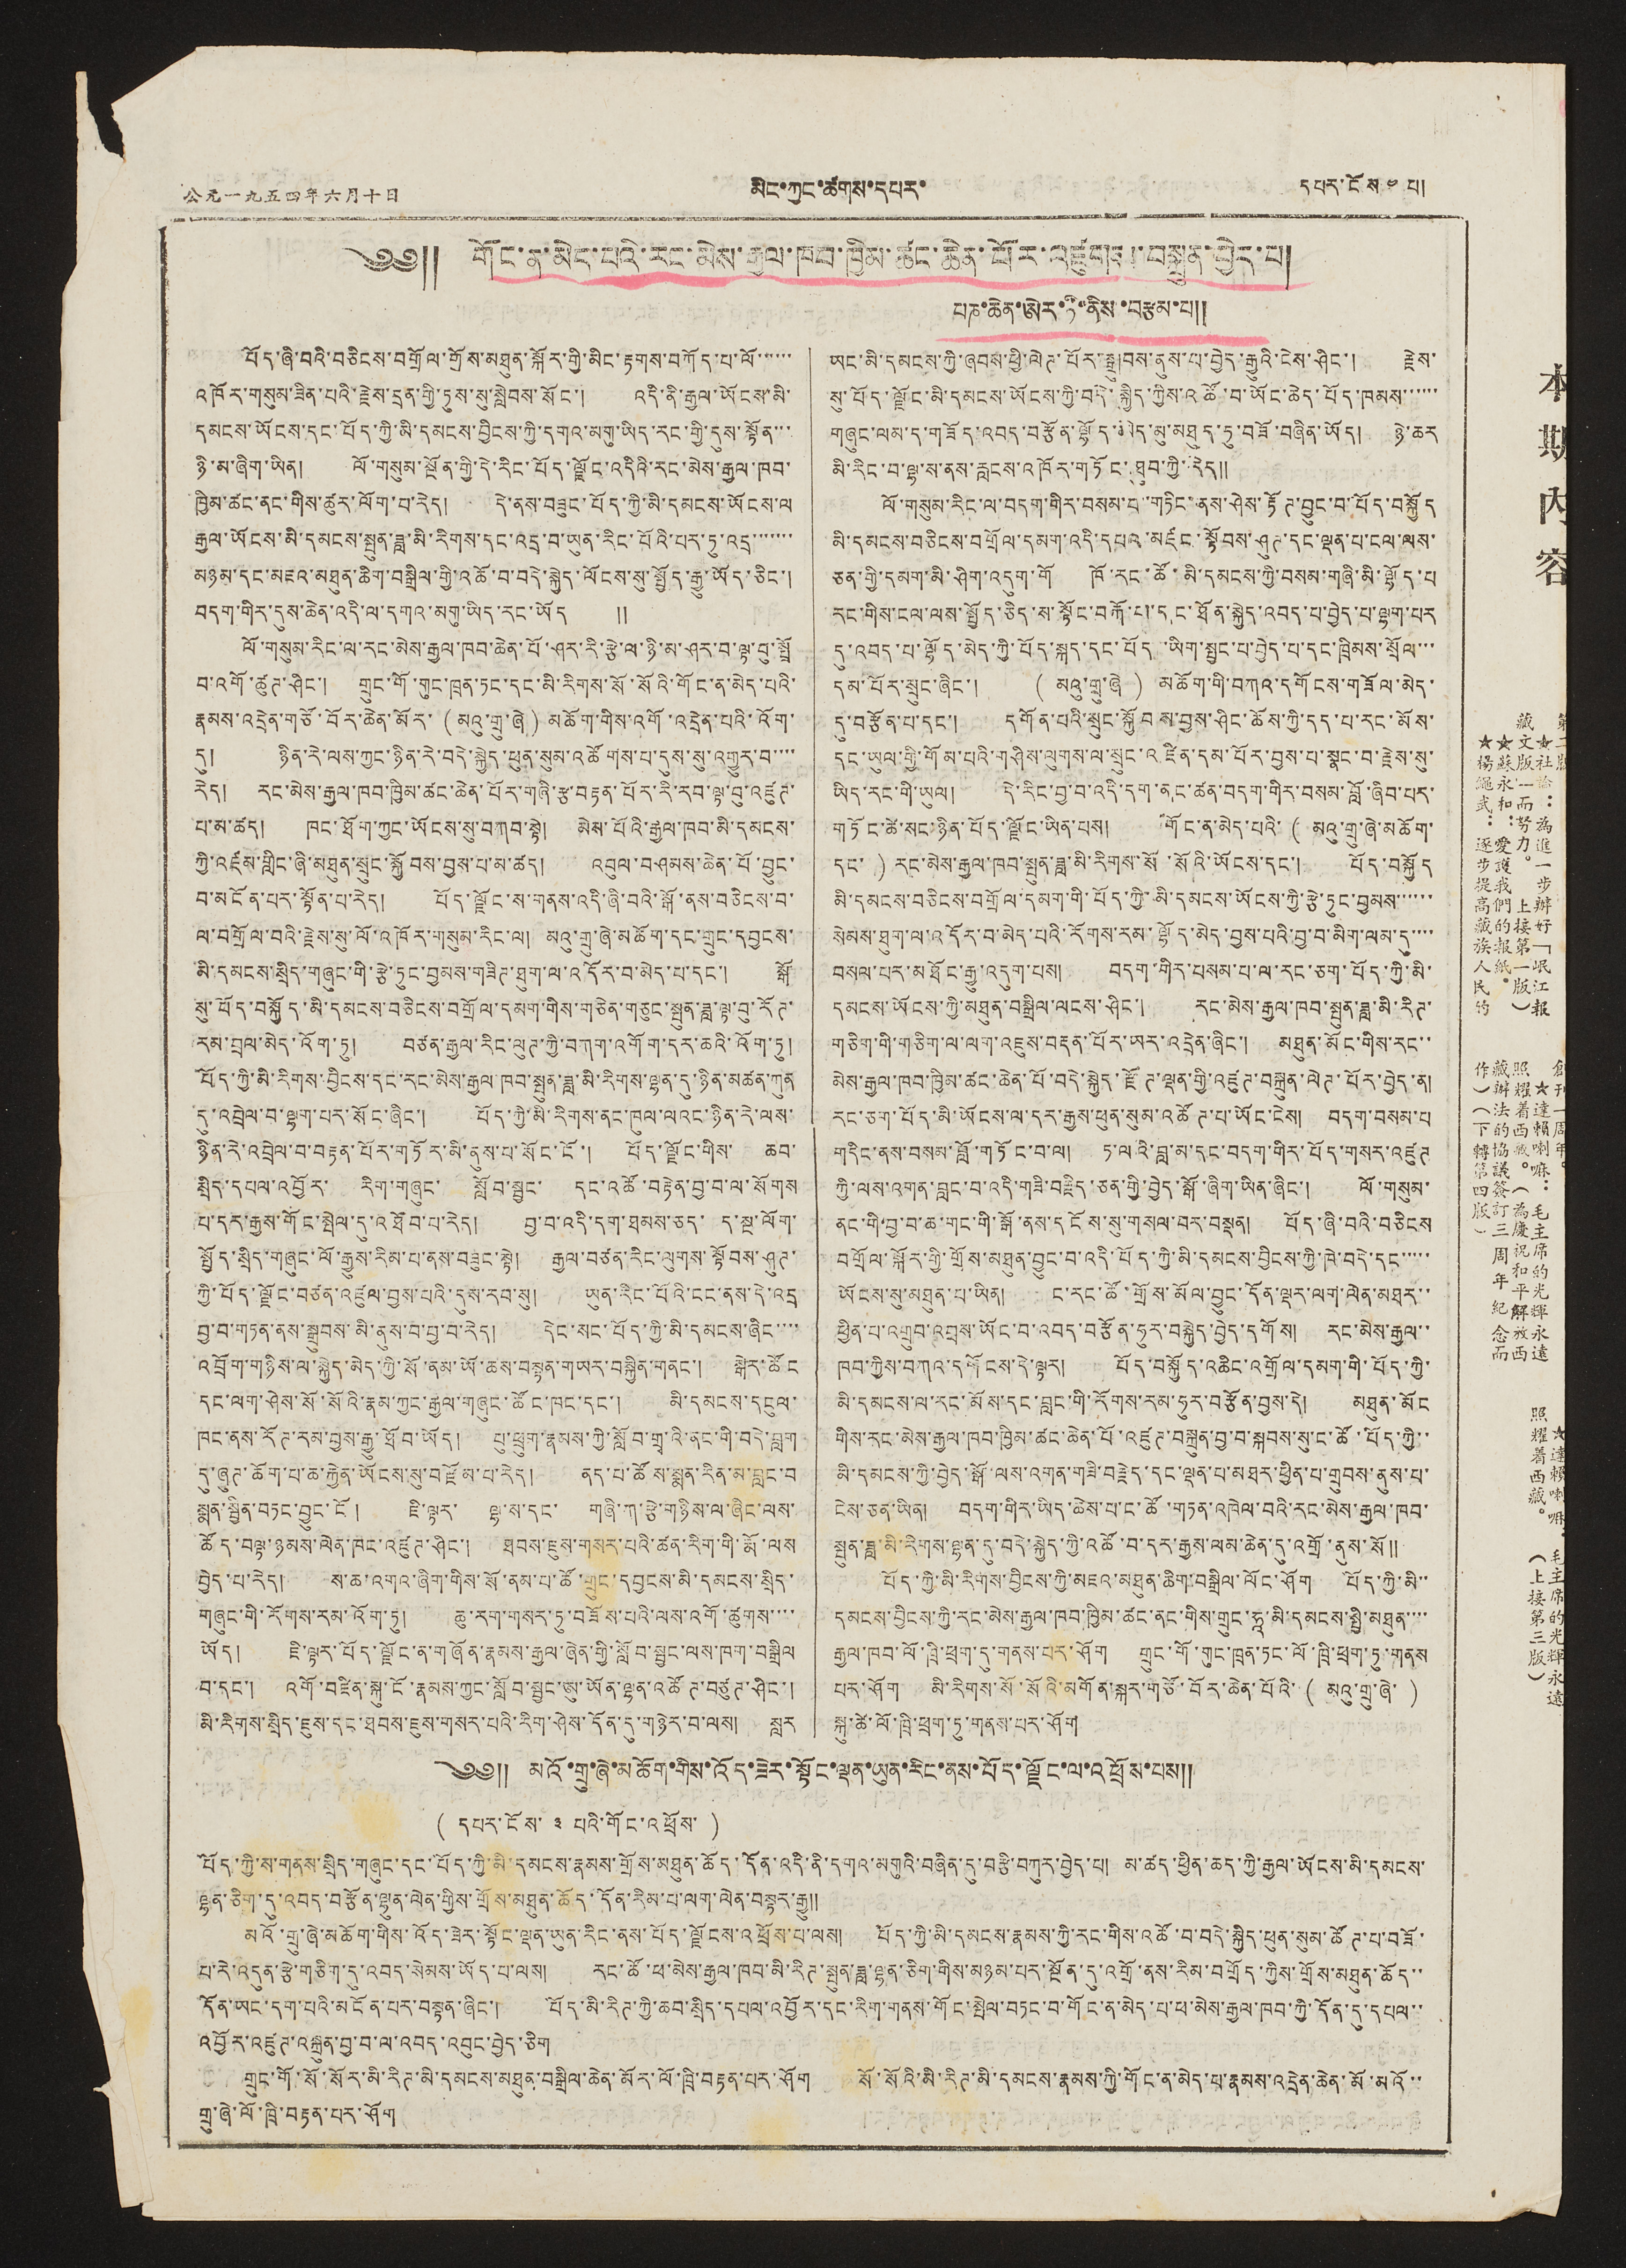公元一九五四年六月十日 མིང་ཀྱང་ཚགས་དཔར་ དཔར་ངོས  ༤ པ།
༄༅༎ གོང་ན་མེད་པའི་རང་མེས་རྒྱལ་ཁབ་ཁྱིམ་ཚང་ཆེན་པོར་འཛུགས་བསྐྲུན་བྱེད་པ།
པཎ་ཆེན་ཨེར་ཏི་ནིས་བརྩམ་པ༎
བོད་ཞི་བའི་བཅིངས་བགྲོལ་གྲོས་མཐུན་སྐོར་གྱི་མིང་རྟགས་བཀོད་པ་ལོ་་་་་་
འཁོར་གསུམ་ཟིན་པའི་རྗེས་དྲན་གྱི་ཏུས་སུ་སླེབས་སོང་། འདི་ནི་རྒྱལ་ཡོངས་མི་
དམངས་ཡོངས་དང་བོད་ཀྱི་མི་དམངས་བྱིངས་ཀྱི་དགའ་མགུ་ཡིད་རང་གྱི་དུས་སྟོན་་་
ཉི་མ་ཞིག་ཡིན། ལོ་གསུམ་སྔོན་གྱི་དེ་རིང་བོད་ལྗོང་འདིའི་རང་མེས་རྒྱལ་ཁབ་
ཁྱིམ་ཚང་ནང་གིས་ཚུར་ལོག་པ་རེད། དེ་ནས་བཟུང་བོད་ཀྱི་མི་དམངས་ཡོངས་ལ
རྒྱལ་ཡོངས་མི་དམངས་སྤུན་ཟླ་མི་རིགས་དང་འདྲ་བ་ཡུན་རིང་པོའི་པར་ཏུ་འདྲ་་་་་་་
མཉམ་དང་མཇའ་མཐུན་ཆིག་བསྒྲིལ་གྱི་འཆོ་བ་བདེ་སྐྱེད་ལོངས་སུ་སྤྱོད་རྒྱུ་ཡོད་ཅིང་།
བདག་གིར་དུས་ཆེན་འདི་ལ་དགའ་མགུ་ཡིད་རང་ཡོད ༎
ལོ་གསུམ་རིང་ལ་རང་མེས་རྒྱལ་ཁབ་ཆེན་པོ་ཤར་རི་རྩེ་ལ་ཉི་མ་ཤར་བ་ལྟ་བུ་སྤྲོ
བ་འགོ་ཚུཊ་ཤིང་། གྲུང་གོ་གུང་ཁྲན་ཏང་དང་མི་རིགས་སོ་སོའི་གོང་ན་མེད་པའི་
རྣམས་འདྲེན་གཙོ་བོར་ཆེན་མོར་ ( མའུ་གྲུ་ཞེ ) མཆོག་གིས་འགོ་འདྲེན་པའི་འོག་
དུ། ཉིན་རེ་ལས་ཀྱང་ཉིན་རེ་བདེ་སྐྱེད་ཕུན་སུམ་འཚོགས་པ་དུས་སུ་འགྱུར་བ་་་་
རེད། རང་མེས་རྒྱལ་ཁབ་ཁྱིམ་ཚང་ཆེན་པོར་གཞི་རྩ་བརྟན་པོར་རི་རབ་ལྟ་བུ་འཛུཊ་
པ་མ་ཚད། ཁང་ཐོག་ཀྱང་ཡོངས་སུ་བཀབ་སྟེ། མེས་པོའི་རྒྱལ་ཁབ་མི་དམངས་
ཀྱི་འཛམ་གླིང་ཞི་མཐུན་སྲུང་སྐྱོབས་བྱས་པ་མ་ཚད། འབུལ་བཤམས་ཆེན་པོ་བྱུང་
བ་མངོན་པར་སྟོན་པ་རེད། བོད་ལྗོང་ས་གནས་འདི་ཞི་བའི་སྒོ་ནས་བཅིངས་བ་
ལ་བགྲོལ་བའི་རྗེས་སུ་ལོ་འཁོར་གསུམ་རིང་ལ། མའུ་གྲུ་ཞེ་མཆོག་དང་གྲུང་དབྱངས་
མི་དམངས་སྲིད་གཞུང་གི་རྩེ་ཏུང་བྱམས་གཟིཊ་ཐུག་ལ་འདོར་བ་མེད་པ་དང་། སྒོ་
སུ་བོད་བསྐྱོད་མི་དམངས་བཅིངས་བགྲོལ་དམག་གིས་གཅེན་གཅུང་སྤུན་ཟླ་ལྟ་བུ་རོཊ་
རམ་བྲལ་མེད་འོག་ཏུ། བཙན་རྒྱལ་རིང་ལུཊ་ཀྱི་བཀག་འགོག་དར་ཆའི་འོག་ཏུ།
བོད་ཀྱི་མི་རིགས་བྱིངས་དང་རང་མེས་རྒྱལ་ཁབ་སྤུན་ཟླ་མི་རིགས་ལྷན་དུ་ཉིན་མཚན་ཀུན
དུ་འབྲེལ་བ་ལྷག་པར་སོང་ཞིང་། བོད་ཀྱི་མི་རིགས་ནང་ཁུལ་ལའང་ཉིན་རེ་ལས་
ཉིན་རེ་འབྲེལ་བ་བརྟན་པོར་གཏོར་མི་ནུས་པ་སོང་ངོ་། བོད་ལྗོང་གིས་ ཆབ་
སྲིད་དཔལ་འབྱོར་  རིག་གཞུང་    སློབ་སྦྱང་    དང་འཚོ་བརྟེན་བྱ་བ་ལ་སོགས
པ་དར་རྒྱས་གོང་སྤེལ་དུ་འཐོབ་པ་རེད། བྱ་བ་འདི་དག་ཐམས་ཅད་ ད་སྔ་ལོག་
སྤྱོད་སྲིད་གཞུང་ལོ་རྒྱུས་རིམ་པ་ནས་བཟུང་སྟེ། རྒྱལ་བཙན་རིང་ལུགས་སྟོབས་ཤུཊ་
ཀྱི་བོད་ལྗོང་བཙན་འཛུལ་བྱས་པའི་དུས་རབ་སུ། ཡུན་རིང་པོའི་ངང་ནས་དེ་འདྲ
བྱ་བ་གཏན་ནས་སྒྲུབས་མི་ནུས་བ་བྱ་བ་རེད། དེང་སང་བོད་ཀྱི་མི་དམངས་ཞིང་་་་
འབྲོག་གཉིས་ལ་སྐྱེད་མེད་ཀྱི་སོ་ནམ་ཡོ་ཆས་བསྟན་གཡར་བསྐྱིན་གནང་། སྒེར་ཚོང
དང་ལག་ཤེས་སོ་སོའི་རྣམ་ཀྱང་རྒྱལ་གཞུང་ཚོང་ཁང་དང་། མི་དམངས་དངུལ་
ཁང་ནས་རོཊ་རམ་བྱས་རྒྱུ་ཐོབ་ཡོད། པུ་ཕྲུག་རྣམས་ཀྱི་སློབ་གྲྭ་འི་ནང་གི་བདེ་བླག
དུ་ཞུཊ་ཆོག་པ་ཆ་རྐྱེན་ཡོངས་སུ་བརྫོམ་པ་རེད། ནད་པ་ཚོས་སྨན་རིན་མ་བླང་བ་
སྨན་སྦྱིན་བཏང་བྱུང་ངོ། ཇི་ལྟར་ ལྷ་ས་དང་ གཞི་ཀ་རྩེ་གཉིས་ལ་ཞིང་ལས་
ཚོད་བལྟ་ཉམས་ལེན་ཁང་འཛུཊ་ཤིང་། ཐབས་ཇུས་གསར་པའི་ཚན་རིག་གི་རྨོ་ལས
བྱེད་པ་རེད། ས་ཆ་འགའ་ཞིག་གིས་སོ་ནམ་པ་ཚོ་གྲུང་དབྱངས་མི་དམངས་སྲིད་
གཞུང་གི་རོགས་རམ་འོག་ཏུ། ཆུ་རག་གསར་ཏུ་བཟོས་པའི་ལས་འགོ་ཚུགས་་་་
ཡོད། ཇི་ལྟར་བོད་ལྗོང་ན་གཞོན་རྣམས་རྒྱལ་ཞེན་གྱི་སློབ་སྦྱང་ལས་ཁག་བསྒྲིལ
བ་དང་། འགོ་བཛིན་སྐུ་ངོ་རྣམས་ཀྱང་སློབ་སྦྱང་ཨུ་ཡོན་ལྷན་འཚོཊ་བཙུཊ་ཤིང་།
མི་རིགས་སྲིད་ཇུས་དང་ཐབས་ཇུས་གསར་པའི་རིག་ཤེས་དོན་དུ་གཉེར་བ་ལས། སླར
ཡང་མི་དམངས་ཀྱི་ཞབས་ཕྱི་ལེཊ་པོར་སྒྲུབས་ནུས་པ་བྱེད་རྒྱུའི་ངེས་ཤིང་། རྗེས་
སུ་བོད་ལྗོང་མི་དམངས་ཡོངས་ཀྱི་བདེ་སྐྱིད་ཀྱིས་འཚོ་བ་ཡོང་ཆེད་བོད་ཁམས་་་་་་
གཞུང་ལམ་ད་གཟོད་འབད་བརྩོན་ལྷོད་མེད་མུ་མཐུད་ཏུ་བཟོ་བཞིན་ཡོད། ཉེ་ཆར
མི་རིང་བ་ལྷ་ས་ནས་རླངས་འཁོར་གཏོང་ཐུབ་ཀྱི་རེད༎
ལོ་གསུམ་རིང་ལ་བདག་གིར་བསམ་པ་གཏིང་ནས་ཤེས་རྟོཊ་བྱུང་བ་བོད་བསྐྱོད
མི་དམངས་བཅིངས་བགྲོལ་དམག་འདི་དཔའ་མཛང་སྟོབས་ཤུཊ་དང་ལྡན་པ་ངལ་ལས་
ཅན་གྱི་དམག་མི་ཤིག་འདུག་གོ ཁོ་རང་ཚོ་མི་དམངས་ཀྱི་བསམ་གཞི་མི་ལྷོད་པ
རང་གིས་ངལ་ལས་སྤྱོད་ཅིད་ས་སྟོང་བརྐོ་པ་དང་ཐོན་སྐྱེད་འབད་པ་བྱེད་པ་ལྷག་པར
དུ་འབད་པ་ལྷོད་མེད་ཀྱི་བོད་སྐད་དང་བོད ་ཡིག་སྦྱང་པ་བྱེད་པ་དང་ཁྲིམས་སྲོལ་་་
དམ་པོར་སྲུང་ཞིང་། ( མའུ་གྲུ་ཞེ ) མཆོག་གི་བཀའ་དགོངས་གཟོལ་མེད་
དུ་བརྩོན་པ་དང་། དགོན་པའི་སྲུང་སྐྱོབས་བྱས་ཤིང་ཆོས་ཀྱི་དད་པ་རང་མོས་
དང་ཡུལ་གྱི་གོམ་པའི་གཤིས་ལུགས་ལ་སྲུང་འཛིན་དམ་པོར་བྱས་པ་སྣང་བ་རྗེས་སུ་
ཡིད་རང་གི་ཡུལ། དེ་རིང་བྱ་བ་འདི་དག་ནང་ཚན་བདག་གིར་བསམ་བློ་ཞིབ་པར་
གཏོང་ཚེ་སང་ཉིན་བོད་ལྗོང་ཡིན་པས། གོང་ན་མེད་པའི་ ( མའུ་གྲུ་ཞེ་མཆོག་
དང་ ) རང་མེས་རྒྱལ་ཁབ་སྤུན་ཟླ་མི་རིགས་སོ ་སོའི་ཡོངས་དང་། བོད་བསྐྱོད
མི་དམངས་བཅིངས་བགྲོལ་དམག་གི་བོད་ཀྱི་མི་དམངས་ཡོངས་ཀྱི་རྩེ་ཏུང་བྱམས་་་་་་
སེམས་ཐུག་ལ་འདོར་བ་མེད་པའི་རོགས་རམ་ལྷོད་མེད་བྱས་པའི་བྱ་བ་མིག་ལམ་དུ་་་་
བསལ་པར་མཐོང་རྒྱུ་འདུག་པས། བདག་གིར་བསམ་པ་ལ་རང་ཅག་བོད་ཀྱི་མི་
དམངས་ཡོངས་ཀྱི་མཐུན་བསྒྲིལ་ལངས་ཤིང་། རང་མེས་རྒྱལ་ཁབ་སྤུན་ཟླ་མི་རིཊ་
གཅིག་གི་གཅིག་ལ་ལག་འཇུས་བརྡན་པོར་ཡར་འདྲེན་ཞིང་། མཐུན་མོང་གིས་རང་་
མེས་རྒྱལ་ཁབ་ཁྱིམ་ཚང་ཆེན་པོ་བདེ་སྐྱེད་རྫོཊ་ལྡན་གྱི་འཛུཊ་བསྐྲུན་ལེཊ་པོར་བྱེད་ན།
རང་ཅག་བོད་མི་ཡོངས་ལ་དར་རྒྱས་ཕུན་སུམ་འཚོཊ་པ་ཡོང་ངེས། བདག་བསམ་པ
གདིང་ནས་བསམ་བློ་གཏོང་བ་ལ། ཏ་ལའི་བླ་མ་དང་བདག་གིར་བོད་གསར་འཛུཊ
ཀྱི་ལས་འགན་བླང་བ་འདི་གཟི་བརྗིད་ཅན་གྱི་བྱེད་སྒོ་ཞིག་ཡིན་ཞིང་། ལོ་གསུམ་
ནང་གི་བྱ་བ་ཆ་གང་གི་སྒོ་ནས་དངོས་སུ་གསལ་བར་བསྡན། བོད་ཞི་བའི་བཅིངས
བགྲོལ་སྐོར་གྱི་གྲོས་མཐུན་བྱུང་བ་འདི་བོད་ཀྱི་མི་དམངས་བྱིངས་ཀྱི་ཁེ་བདེ་དང་་་་་་
ཡོངས་སུ་མཐུན་པ་ཡིན། ང་རང་ཚོ་གྲོས་མོལ་བྱང་དོན་ལྡར་ལག་ལེན་མཐར་་
ཕྱིན་པ་འགྲུབ་འབྲས་ཡོང་བ་འབད་བརྩོན་ཧུར་བསྐྱེད་བྱེད་དགོས། རང་མེས་རྒྱལ་་
ཁབ་ཀྱིས་བཀའ་དགོངས་དེ་ལྟར། བོད་བསྐྱོད་འཆིང་འགྲོལ་དམག་གི་བོད་ཀྱི་
མི་དམངས་ལ་རང་མོས་དང་བླང་གི་རོགས་རམ་ཧུར་བརྩོན་བྱས་དེ། མཐུན་མོང
གིས་རང་མེས་རྒྱལ་ཁབ་ཁྱིམ་ཚང་ཆེན་པོ་འཛུཊ་བསྐྲུན་བྱ་བ་སྐབས་སུ་ང་ཚོ་བོད་ཀྱི་་
མི་དམངས་ཀྱི་བྱེད་སྒོ་ལས་འགན་གཟི་བརྗེད་དང་ལྡན་པ་མཐར་ཕྱིན་པ་གྲུབས་ནུས་པ་
ངེས་ཅན་ཡིན། བདག་གིར་ཡིད་ཆེས་པ་ང་ཚོ ་གཏན་འཁེལ་བའི་རང་མེས་རྒྱལ་ཁབ་
སྤུན་ཟླ་མི་རིགས་ལྷན་དུ་བདེ་སྐྱེད་ཀྱི་འཚོ་བ་དར་རྒྱས་ལམ་ཆེན་དུ་འགྲོ་ནུས་སོ༎
བོད་ཀྱི་མི་རིགས་བྱིངས་ཀྱི་མཇའ་མཐུན་ཆིག་བསྒྲིལ་ལོང་ཤོག བོད་ཀྱི་མི་་
དམངས་བྱིངས་ཀྱི་རང་མེས་རྒྱལ་ཁབ་ཁྱིམ་ཚང་ནང་གིས་གྲུང་ཧཱ་མི་དམངས་སྤྱི་མཐུན་་་་
རྒྱལ་ཁབ་ལོ་ཁྲི་ཕྲག་དུ་གནས་པར་ཤོག གྲུང་གོ་གུང་ཁྲན་ཏང་ལོ་ཁྲི་ཕྲག་ཏུ་གནས
པར་ཤོག མི་རིགས་སོ་སོའི་མགོན་སྐར་གཙོ་བོར་ཆེན་པོའི་ ( མའུ་གྲུ་ཞེ་ )
སྐུ་ཚེ་ལོ་ཁྲི་ཕྲག་ཏུ་གནས་པར་ཤོག
( དཔར་ངོས་ ༣ པའི་གོང་འཕྲོས་)
༄༅༎ མའོ་གྲུ་ཞེ་མཆོག་གིས་འོད་ཟེར་སྟོང་ལྡན་ཡུན་རིང་ནས་བོད་ལྗོང་ལ་འཕྲོས་པས༎
བོད་ཀྱི་ས་གནས་སྲིད་གཞུང་དང་བོད་ཀྱི་མི་དམངས་རྣམས་གྲོས་མཐུན་ཆོད་དོན་འདི་ནི་དགའ་མགུའི་བཞིན་དུ་བརྩི་བཀུར་བྱེད་པ། མ་ཚད་ཕྱིན་ཆད་ཀྱི་རྒྱལ་ཡོངས་མི་དམངས་
ལྷན་ཅིག་དུ་འབད་བརྩོན་ལྷུན་ལེན་གྱིས་གྲོས་མཐུན་ཆོད་དོན་རིམ་པ་ལག་ལེན་བསྟར་རྒྱུ༎
མའོ་གྲུ་ཞེ་མཆོག་གིས་འོད་ཟེར་སྟོང་ལྡན་ཡུན་རིང་ནས་བོད་ལྗོངས་འཕྲོས་པ་ལས། བོད་ཀྱི་མི་དམངས་རྣམས་ཀྱི་རང་གིས་འཚོ་བ་བདེ་སྐྱིད་ཕུན་སུམ་ཚོཊ་པ་བཟོ་
པ་རེ་འདུན་རྩེ་གཅིག་དུ་འབད་སེམས་ཡོད་པ་ལས། རང་ཚོ་ཕ་མེས་རྒྱལ་ཁབ་མི་རིཊ་སྤུན་ཟླ་ལྷན་ཅིག་གིས་མཉམ་པར་སྔོན་དུ་འགྲོ་ནས་རིམ་བགྲོད་ཀྱིས་གྲོས་མཐུན་ཆོད་་
དོན་ཡང་དག་པའི་མངོན་པར་བསྟན་ཞིང་། བོད་མི་རིཊ་ཀྱི་ཆབ་སྲིད་དཔལ་འབྱོར་དང་རིག་གནས་གོང་སྤེལ་བཏང་བ་གོང་ན་མེད་པ་ཕ་མེས་རྒྱལ་ཁབ་ཀྱི་དོན་དུ་དཔལ་་
འབྱོར་འཛུཊ་འསྐྲུན་བྱ་བ་ལ་འབད་འབུང་བྱེད་ཅིག
གྲུང་གོ་སོ་སོར་མི་རིཊ་མི་དམངས་མཐུན་བསྒྲིལ་ཆེན་མོར་ལོ་ཁྲི་བརྟན་པར་ཤོག སོ་སོའི་མི་རིཊ་མི་དམངས་རྣམས་ཀྱི་གོང་ན་མེད་པ་རྣམས་འདྲེན་ཆེན་མོ་མའོ་་
གྲུ་ཞེ་ལོ་ཁྲི་བརྟན་པར་ཤོག
本 期 內 容
第二版
★社論：爲進一步辦好「岷江報
藏文版」而努力。 上接第一版）
★蘇永和：愛護我們的報紙。
★楊繩武：逐步提高藏族人民的
創刊一週年。
★達賴喇嘛：毛主席的光輝永遠
照耀着西藏。（爲慶祝和平解放西
藏辦法的協議簽訂三 周 年 紀 念而
作）（下轉第四版）
★達賴喇嘛：毛主席的光輝永遠
照耀着西藏。（上接第三版）
